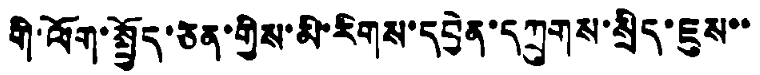གི་ལོག་སྤྱོད་ཅན་གྱིས་མི་རིགས་དབྱེན་དཀྲུགས་སྲིད་ཇུས་་
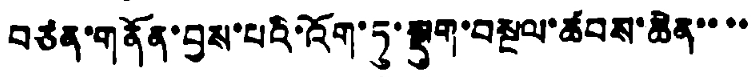བཙན་གནོན་བྱས་པའི་འོག་ཏུ་སྡུག་བསྔལ་ཚབས་ཆེན་་་་
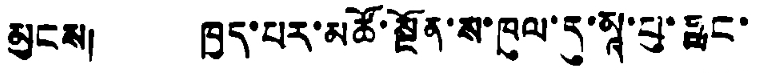མྱངས། ཁྱད་པར་མཚོ་སྔོན་ས་ཁུལ་དུ་མཱ་པུ་ཧྥང་
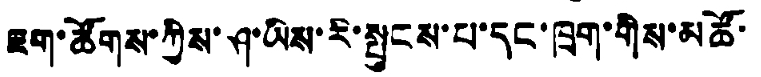ཇག་ཚོགས་ཀྱིས་ཤ་ཡིས་རི་སྤུངས་པ་དང་ཁྲག་གིས་མཚོ་
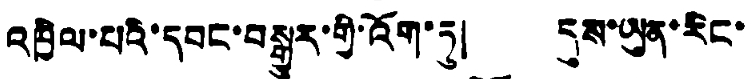འཁྱིལ་པའི་དབང་བསྒྱུར་གྱི་འོག་ཏུ། དུས་ཡུན་རིང་
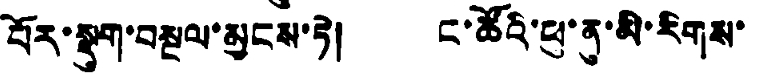པོར་སྡུག་བསྔལ་མྱངས་ཏེ། ང་ཚོའི་ཕུ་ནུ་མི་རིགས་
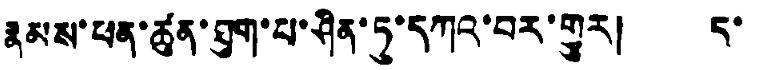རྣམས་ཕན་ཚུན་ཐུག་པ་ཤིན་ཏུ་དཀའ་བར་གྱུར། ད་
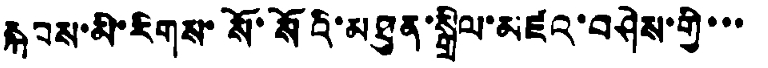སྐབས་མི་རིགས་སོ་སོའི་མཐུན་སྒྲིལ་མཛའ་བཤེས་གྱི་་་
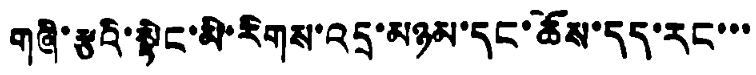གཞི་རྩའི་སྟེང་མི་རིགས་འདྲ་མཉམ་དང་ཆོས་དད་རང་་་
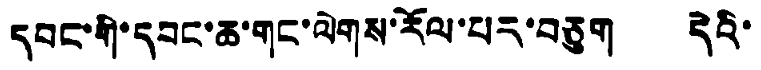དབང་གི་དབང་ཆ་གང་ལེགས་རོལ་པར་བཅུག དེའི་
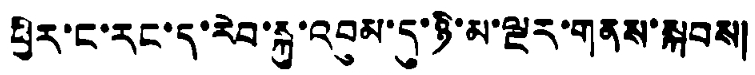ཕྱིར་ང་རང་དུ་རེབ་སྐུ་འབུམ་དུ་ཉི་མ་ལྔར་གནས་སྐབས།
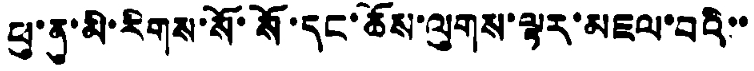ཕུ་ནུ་མི་རིགས་སོ་སོ་དང་ཆོས་ལུགས་ལྟར་མཇལ་བའི་་
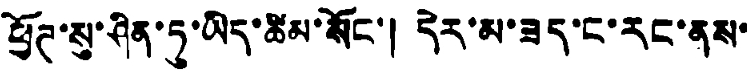ཕྱོཊ་སུ་ཤིན་ཏུ་ཡིད་ཚིམ་སོང་། དེར་མ་ཟད་ང་རང་ནས་
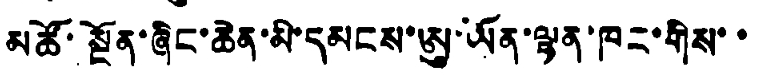མཚོ་སྔོན་ཞིང་ཆེན་མི་དམངས་ཨུ་ཡོན་ལྷན་ཁང་གིས་་
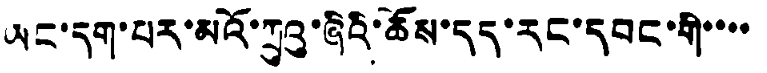ཡང་དག་པར་མའོ་ཀྲུའུ་ཞིའི་ཆོས་དད་རང་དབང་གི་་་་
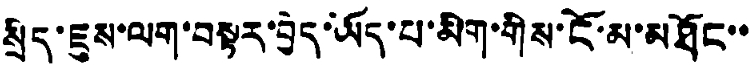སྲིད་ཇུས་ལག་བསྟར་བྱེད་ཡོད་པ་མིག་གིས་ངོ་མ་མཐོང་་
